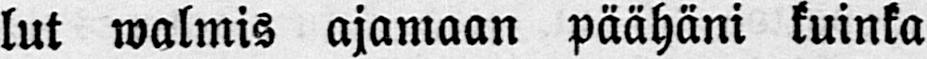lut walmis ajamaan päähäni kuinka
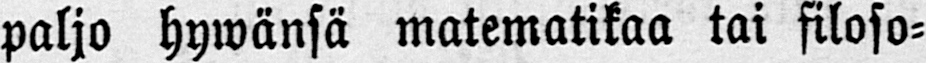paljo hywänsä matematikaa tai filoso-
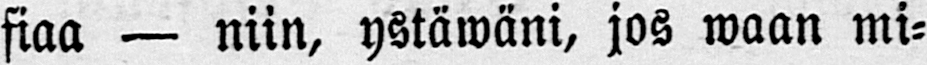fiaa — niin, ystäwäni, jos waan mi-
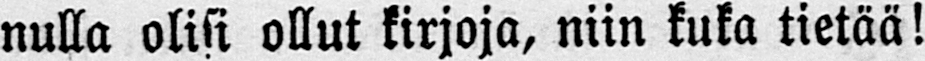nulla olisi ollut kirjoja, niin kuka tietää!
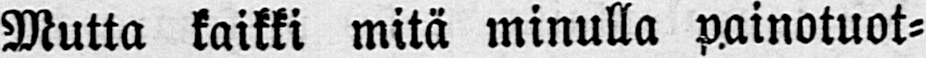Mutta kaikki mitä minulla painotuot-
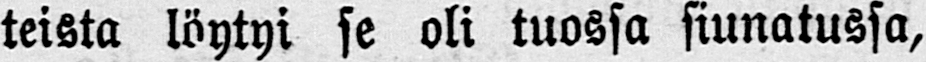teista löytyi se oli tuossa siunatussa,
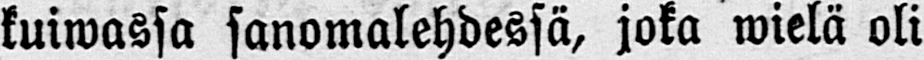kuiwassa sanomalehdessä, joka wielä oli
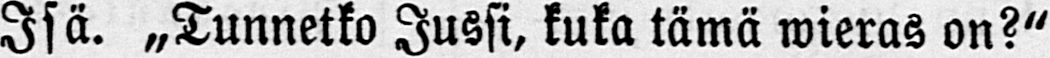Isä. „Tunnetko Jussi, kuka tämä wieras on?"
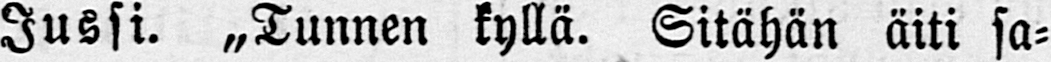Jussi. „Tunnen kyllä. Sitähän äiti sa-
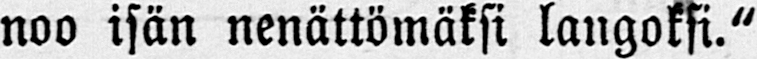noo isän nenättömäksi langoksi."
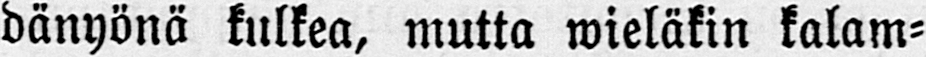dänyönä kulkea, mutta wieläkin kalam-
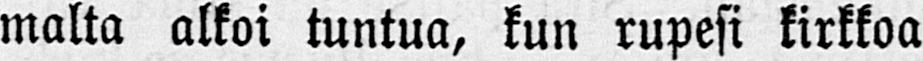malta alkoi tuntua, kun rupesi kirkkoa
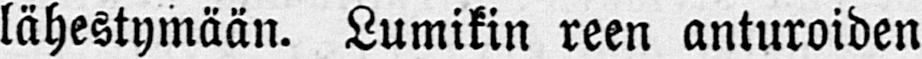lähestymään. Lumikin reen anturoiden
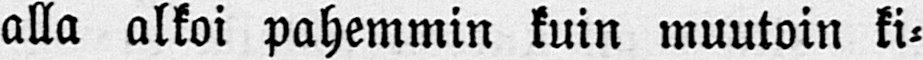alla alkoi pahemmin kuin muutoin ki-
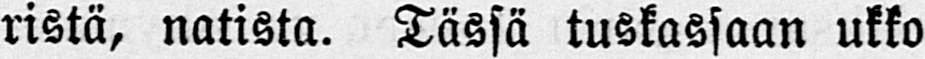ristä, natista. Tässä tuskassaan ukko
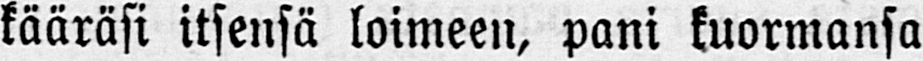kääräsi itsensä loimeen, pani kuormansa
